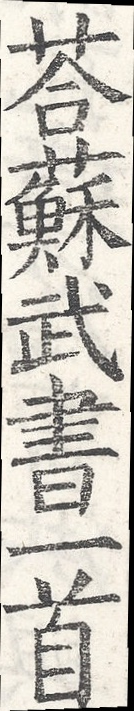荅蘇武書一首
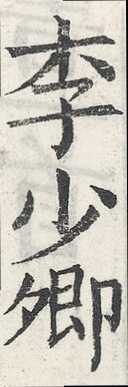李少卿
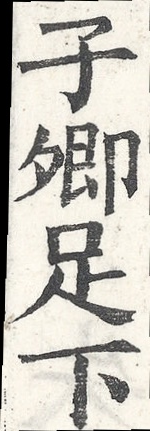子卿足下
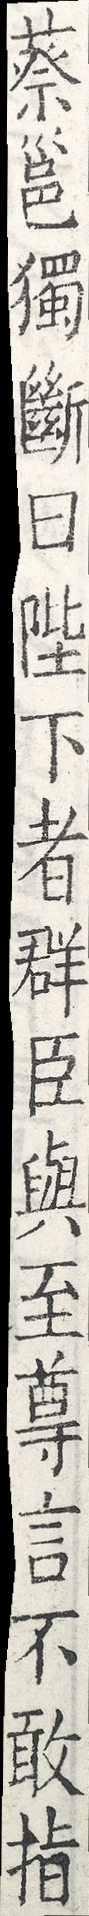蔡邕獨斷曰陛下者群臣與至尊言不敢指
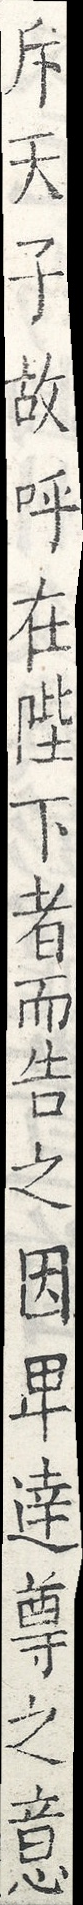斥天子故呼在陛下者而告之因卑達尊之意
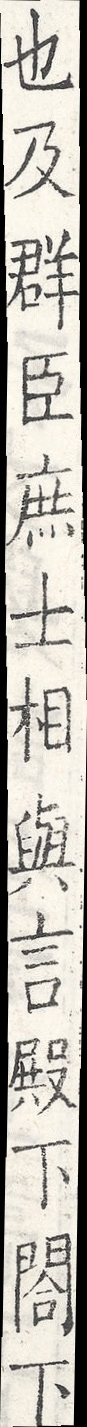也及群臣庶士相與言殿下閤下
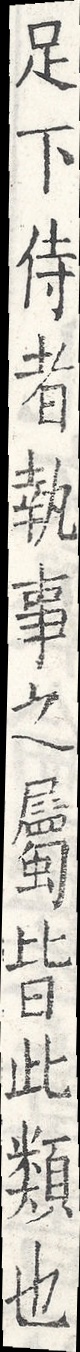足下侍者執事之屬皆此類也
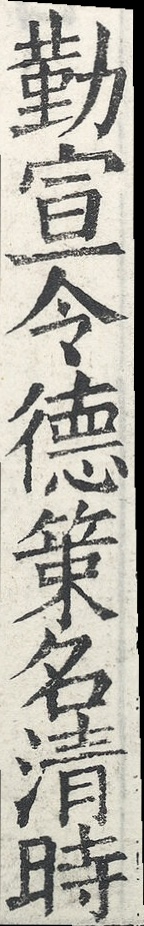勤宣令德策名清時
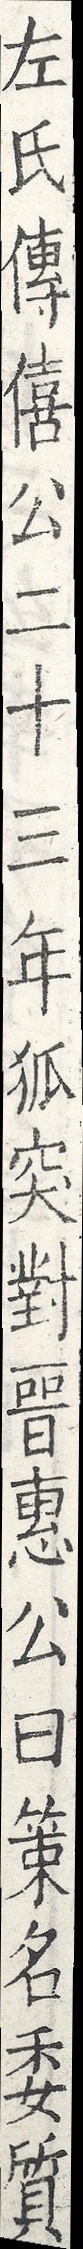左氏傳僖公二十三年狐突對晉惠公曰策名委質
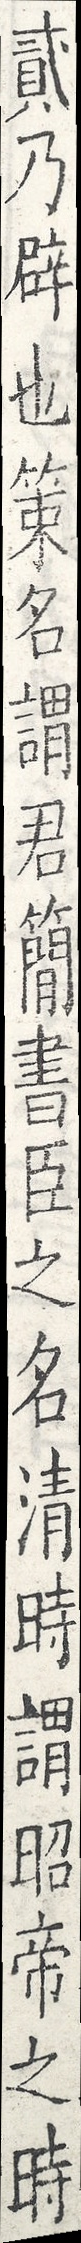貳乃辟也策名謂君簡書臣之名清時謂昭帝之時
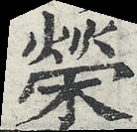榮
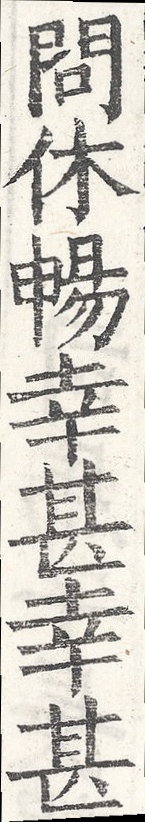問休暢幸甚幸甚
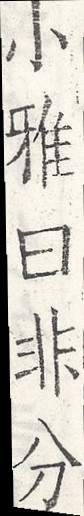小雅曰非分
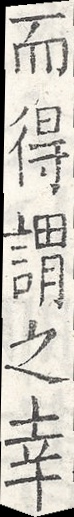而得謂之幸
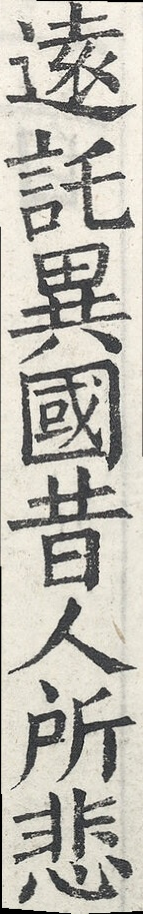遠託異國昔人所悲
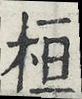桓
